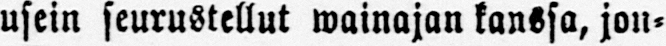usein seurustellut wainajan kanssa, jon-
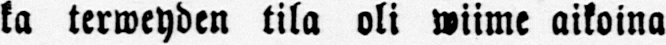ka terweyden tila oli wiime aikoina
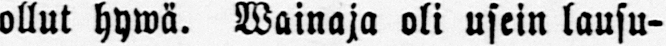ollut hywä. Wainaja oli usein lausu-
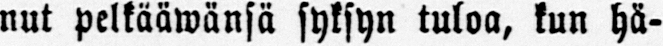nut pelkääwänsä syksyn tuloa, kun hä-
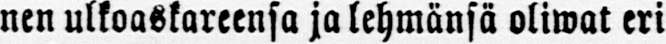nen ulkoaskareensa ja lehmänsä oliwat eri
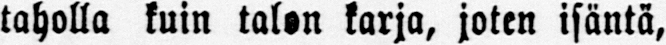taholla kuin talon karja, joten isäntä,
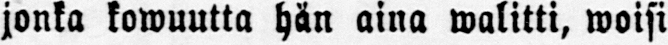jonka kowuutta hän aina walitti, woisi
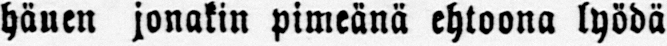hänen jonakin pimeänä ehtoona lyödä
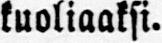kuoliaaksi.
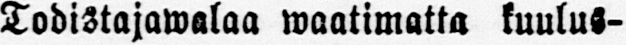Todistajawalaa waatimatta kuulus-
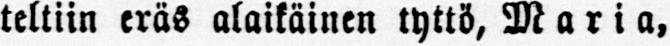teltiin eräs alaikäinen tyttö, Maria,
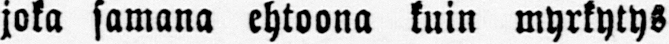joka samana ehtoona kuin myrkytys
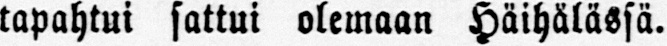tapahtui sattui olemaan Häihälässä.
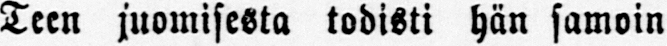Teen juomisesta todisti hän samoin
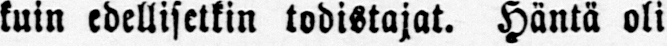kuin edellisetkin todistajat. Häntä oli
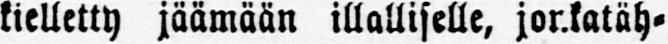kielletty jäämään illalliselle, jor.katäh-
